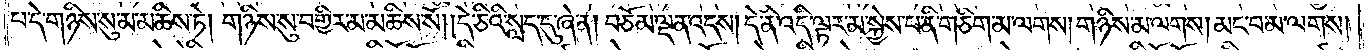པ་དེ་གཉིས་སུ་མ་མཆིས་ཏེ། གཉིས་སུ་བགྱིར་མ་མཆིས་སོ། །དེ་ཅིའི་སླད་དུ་ཞེ་ན། བཅོམ་ལྡན་འདས། དེ་ནི་འདི་ལྟར་མ་སྐྱེས་པ་ནི་གཅིག་མ་ལགས། གཉིས་མ་ལགས། མང་བ་མ་ལགས།
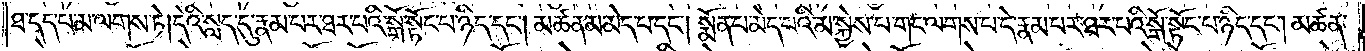ཐ་དད་པ་མ་ལགས་ཏེ། དེའི་སླད་དུ་རྣམ་པར་ཐར་པའི་སྒོ་སྟོང་པ་ཉིད་དང༌། མཚན་མ་མེད་པ་དང༌། སྨོན་པ་མེད་པའི་མ་སྐྱེས་པ་གང་ལགས་པ་དེ་རྣམ་པར་ཐར་པའི་སྒོ་སྟོང་པ་ཉིད་དང༌། མཚན་
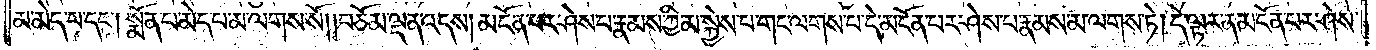མ་མེད་པ་དང༌། སྨོན་པ་མེད་པ་མ་ལགས་སོ། །བཅོམ་ལྡན་འདས། མངོན་པར་ཤེས་པ་རྣམས་ཀྱི་མ་སྐྱེས་པ་གང་ལགས་པ་དེ་མངོན་པར་ཤེས་པ་རྣམས་མ་ལགས་ཏེ། དེ་ལྟར་ན་མངོན་པར་ཤེས་
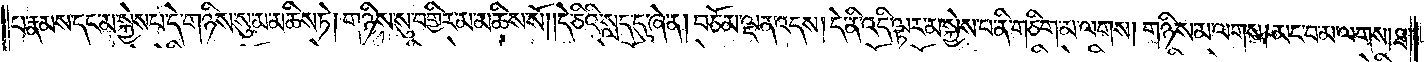པ་རྣམས་དང་མ་སྐྱེས་པ་དེ་གཉིས་སུ་མ་མཆིས་ཏེ། གཉིས་སུ་བགྱིར་མ་མཆིས་སོ། །དེ་ཅིའི་སླད་དུ་ཞེ་ན། བཅོམ་ལྡན་འདས། དེ་ནི་འདི་ལྟར་མ་སྐྱེས་པ་ནི་གཅིག་མ་ལགས། གཉིས་མ་ལགས། མང་བ་མ་ལགས། ཐ་
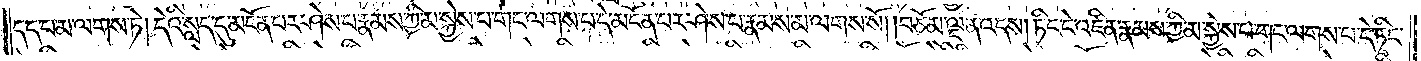དད་པ་མ་ལགས་ཏེ། དེའི་སླད་དུ་མངོན་པར་ཤེས་པ་རྣམས་ཀྱི་མ་སྐྱེས་པ་གང་ལགས་པ་དེ་མངོན་པར་ཤེས་པ་རྣམས་མ་ལགས་སོ། ། བཅོམ་ལྡན་འདས། ཏིང་ངེ་འཛིན་རྣམས་ཀྱི་མ་སྐྱེས་པ་གང་ལགས་པ་དེ་ཏིང་
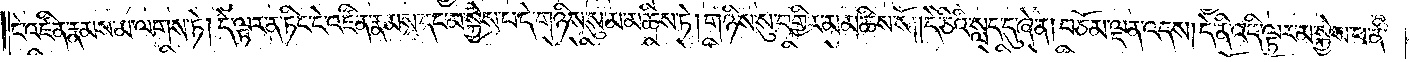ངེ་འཛིན་རྣམས་མ་ལགས་ཏེ། དེ་ལྟར་ན་ཏིང་ངེ་འཛིན་རྣམས་དང་མ་སྐྱེས་པ་དེ་གཉིས་སུ་མ་མཆིས་ཏེ། གཉིས་སུ་བགྱིར་མ་མཆིས་སོ། །དེ་ཅིའི་སླད་དུ་ཞེ་ན། བཅོམ་ལྡན་འདས། དེ་ནི་འདི་ལྟར་མ་སྐྱེས་པ་ནི་
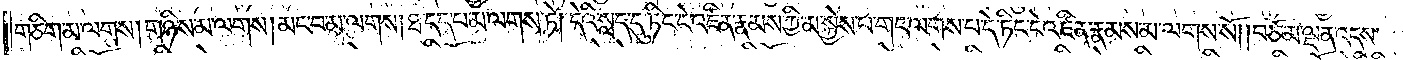གཅིག་མ་ལགས། གཉིས་མ་ལགས། མང་བ་མ་ལགས། ཐ་དད་པ་མ་ལགས་ཏེ། དེའི་སླད་དུ་ཏིང་ངེ་འཛིན་རྣམས་ཀྱི་མ་སྐྱེས་པ་གང་ལགས་པ་དེ་ཏིང་ངེ་འཛིན་རྣམས་མ་ལགས་སོ། །བཅོམ་ལྡན་འདས་
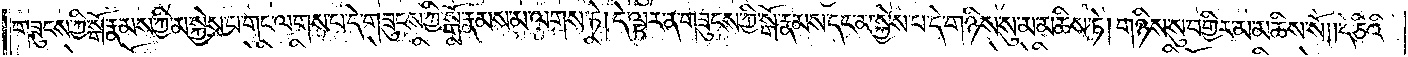གཟུངས་ཀྱི་སྒོ་རྣམས་ཀྱི་མ་སྐྱེས་པ་གང་ལགས་པ་དེ་གཟུངས་ཀྱི་སྒོ་རྣམས་མ་ལགས་ཏེ། དེ་ལྟར་ན་གཟུངས་ཀྱི་སྒོ་རྣམས་དང་མ་སྐྱེས་པ་དེ་གཉིས་སུ་མ་མཆིས་ཏེ། གཉིས་སུ་བགྱིར་མ་མཆིས་སོ། །དེ་ཅིའི་
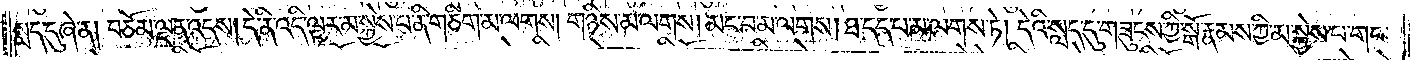སླད་དུ་ཞེ་ན། བཅོམ་ལྡན་འདས། དེ་ནི་འདི་ལྟར་མ་སྐྱེས་པ་ནི་གཅིག་མ་ལགས། གཉིས་མ་ལགས། མང་བ་མ་ལགས། ཐ་དད་པ་མ་ལགས་ཏེ། དེའི་སླད་དུ་གཟུངས་ཀྱི་སྒོ་རྣམས་ཀྱི་མ་སྐྱེས་པ་གང་
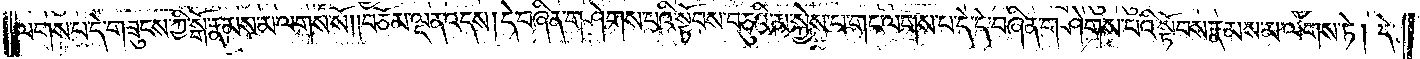ལགས་པ་དེ་གཟུངས་ཀྱི་སྒོ་རྣམས་མ་ལགས་སོ། །བཅོམ་ལྡན་འདས། དེ་བཞིན་གཤེགས་པའི་སྟོབས་བཅུའི་མ་སྐྱེས་པ་གང་ལགས་པ་དེ་དེ་བཞིན་གཤེགས་པའི་སྟོབས་རྣམས་མ་ལགས་ཏེ། དེ་
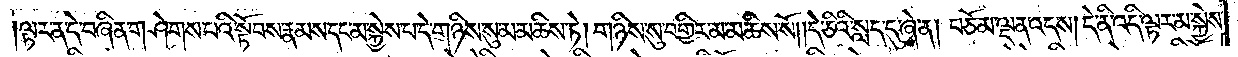ལྟར་ན་དེ་བཞིན་གཤེགས་པའི་སྟོབས་རྣམས་དང་མ་སྐྱེས་པ་དེ་གཉིས་སུ་མ་མཆིས་ཏེ། གཉིས་སུ་བགྱིར་མ་མཆིས་སོ། །དེ་ཅིའི་སླད་དུ་ཞེ་ན། བཅོམ་ལྡན་འདས། དེ་ནི་འདི་ལྟར་མ་སྐྱེས་
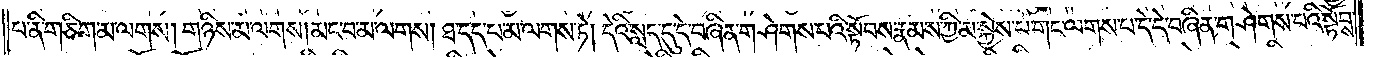པ་ནི་གཅིག་མ་ལགས། གཉིས་མ་ལགས། མང་བ་མ་ལགས། ཐ་དད་པ་མ་ལགས་ཏེ། དེའི་སླད་དུ་དེ་བཞིན་གཤེགས་པའི་སྟོབས་རྣམས་ཀྱི་མ་སྐྱེས་པ་གང་ལགས་པ་དེ་དེ་བཞིན་གཤེགས་པའི་སྟོབས་
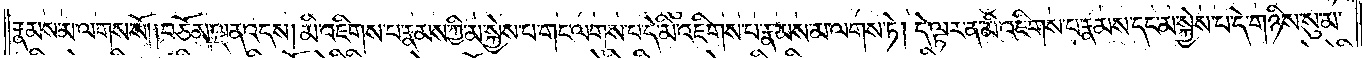རྣམས་མ་ལགས་སོ། །བཅོམ་ལྡན་འདས། མི་འཇིགས་པ་རྣམས་ཀྱི་མ་སྐྱེས་པ་གང་ལགས་པ་དེ་མི་འཇིགས་པ་རྣམས་མ་ལགས་ཏེ། དེ་ལྟར་ན་མི་འཇིགས་པ་རྣམས་དང་མ་སྐྱེས་པ་དེ་གཉིས་སུ་མ་
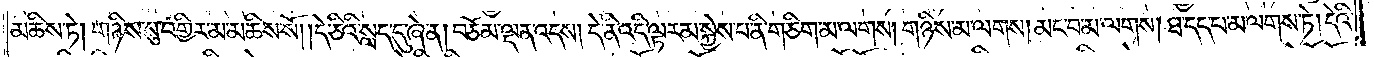མཆིས་ཏེ། གཉིས་སུ་བགྱིར་མ་མཆིས་སོ། །དེ་ཅིའི་སླད་དུ་ཞེ་ན། བཅོམ་ལྡན་འདས། དེ་ནི་འདི་ལྟར་མ་སྐྱེས་པ་ནི་གཅིག་མ་ལགས། གཉིས་མ་ལགས། མང་བ་མ་ལགས། ཐ་དད་པ་མ་ལགས་ཏེ། དེའི་
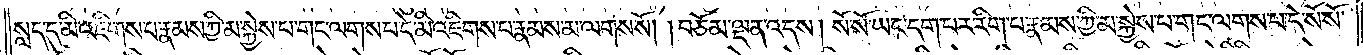སླད་དུ་མི་འཇིགས་པ་རྣམས་ཀྱི་མ་སྐྱེས་པ་གང་ལགས་པ་དེ་མི་འཇིགས་པ་རྣམས་མ་ལགས་སོ། །བཅོམ་ལྡན་འདས། སོ་སོ་ཡང་དག་པར་རིག་པ་རྣམས་ཀྱི་མ་སྐྱེས་པ་གང་ལགས་པ་དེ་སོ་སོ་
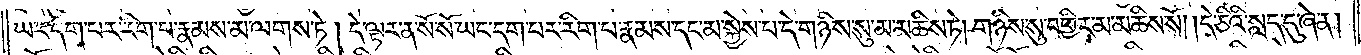ཡང་དག་པར་རིག་པ་རྣམས་མ་ལགས་ཏེ། དེ་ལྟར་ན་སོ་སོ་ཡང་དག་པར་རིག་པ་རྣམས་དང་མ་སྐྱེས་པ་དེ་གཉིས་སུ་མ་མཆིས་ཏེ། གཉིས་སུ་བགྱིར་མ་མཆིས་སོ། །དེ་ཅིའི་སླད་དུ་ཞེ་ན།
